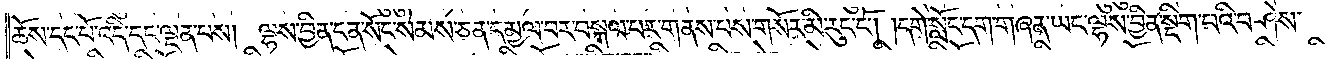ཆོས་དང་པོ་འདི་དང་ལྡན་པས། ལྷས་བྱིན་ངན་སོང་སེམས་ཅན་དམྱལ་བར་བསྐལ་པར་གནས་པས་གསོར་མི་རུང་ངོ༌། །དགེ་སློང་དག་གཞན་ཡང་ལྷས་བྱིན་སྡིག་པའི་བཤེས་
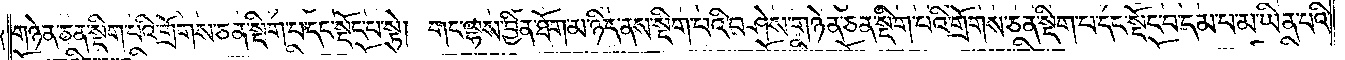གཉེན་ཅན་སྡིག་པའི་གྲོགས་ཅན་སྡིག་པ་དང་སྡོང་པ་སྟེ། གང་ལྷས་བྱིན་ཐོག་མ་ཉིད་ནས་སྡིག་པའི་བཤེས་གཉེན་ཅན་སྡིག་པའི་གྲོགས་ཅན་སྡིག་པ་དང་སྡོང་པ་དམ་པ་མ་ཡིན་པའི་
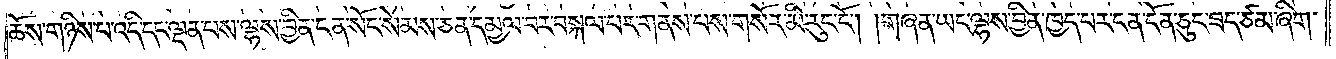ཆོས་གཉིས་པ་འདི་དང་ལྡན་པས་ལྷས་བྱིན་ངན་སོང་སེམས་ཅན་དམྱལ་བར་བསྐལ་པར་གནས་པས་གསོར་མི་རུང་ངོ༌། །གཞན་ཡང་ལྷས་བྱིན་ཁྱད་པར་ངན་ངོན་ཅུང་ཟད་ཙམ་ཞིག་
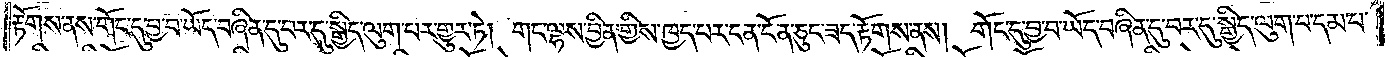རྟོགས་ནས་གོང་དུ་བྱ་བ་ཡོད་བཞིན་དུ་བར་དུ་སྒྱིད་ལུག་པར་གྱུར་ཏེ། གང་ལྷས་བྱིན་གྱིས་ཁྱད་པར་ངན་ངོན་ཅུང་ཟད་རྟོགས་ནས། གོང་དུ་བྱ་བ་ཡོད་བཞིན་དུ་བར་དུ་སྒྱིད་ལུག་པ་དམ་པ་
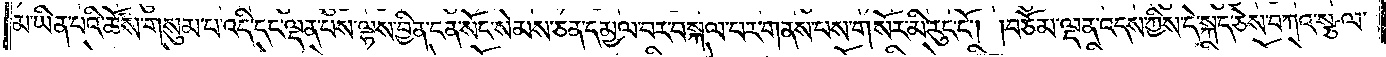མ་ཡིན་པའི་ཆོས་གསུམ་པ་འདི་དང་ལྡན་པས་ལྷས་བྱིན་ངན་སོང་སེམས་ཅན་དམྱལ་བར་བསྐལ་པར་གནས་པས་གསོར་མི་རུང་ངོ༌། །བཅོམ་ལྡན་འདས་ཀྱིས་དེ་སྐད་ཅེས་བཀའ་སྩལ་
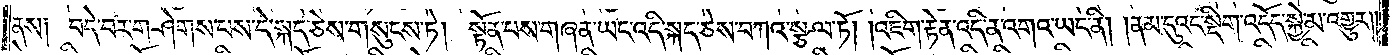ནས། བདེ་བར་གཤེགས་པས་དེ་སྐད་ཅེས་གསུངས་ཏེ། སྟོན་པས་གཞན་ཡང་འདི་སྐད་ཅེས་བཀའ་སྩལ་ཏོ། །འཇིག་རྟེན་འདི་ན་འགའ་ཡང་ནི། །ནམ་དུའང་སྡིག་འདོད་སྐྱེ་མ་འགྱུར༎
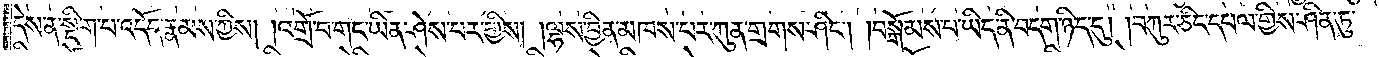དེས་ན་སྡིག་པ་འདོད་རྣམས་ཀྱིས། །འགྲོ་བ་གང་ཡིན་ཤེས་པར་གྱིས། །ལྷས་བྱིན་མཁས་པར་ཀུན་གྲགས་ཤིང༌། །བསྒོམས་པ་ཡིད་ནི་བདག་ཉིད་དུ། །བཀུར་ཅིང་དཔལ་གྱིས་ཤིན་ཏུ་
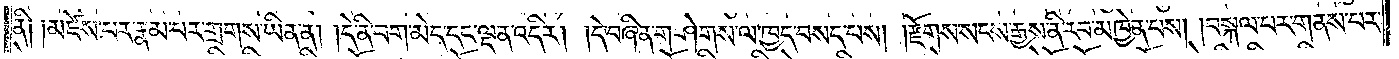ནི། །མཛེས་པར་རྣམ་པར་གྲགས་ཡིན་ན། །དེ་ནི་བག་མེད་དང་ལྡན་འདིར། །དེ་བཞིན་གཤེགས་ལ་ཁྱད་བསད་པས། །རྫོགས་སངས་རྒྱས་ནི་རབ་མཁྱེན་པས། །བསྐལ་པར་གནས་པར་
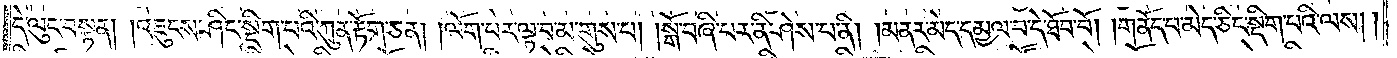དེ་ལུང་བསྟན། །འཇུངས་ཤིང་སྡིག་པའི་ཀུན་རྟོག་ཅན། །ལོག་པར་ལྟ་བ་མ་གུས་པ། །སྒོ་བཞི་པར་ནི་ཤེས་པ་ནི། །མནར་མེད་དམྱལ་བ་དེ་ཐོབ་བོ། །གནོད་པ་མེད་ཅིང་སྡིག་པའི་ལས། །
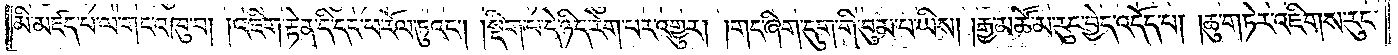མི་མཛད་པ་ལ་གང་འཁུ་བ། །འཇིག་རྟེན་དི་དང་ཕ་རོལ་ཏུ་འང༌། །སྡིག་པ་དེ་ཉིད་རེག་པར་འགྱུར། །གང་ཞིག་དུག་གི་བུམ་པ་ཡིས། །རྒྱ་མཚོ་མ་རུང་བྱེད་འདོད་པ། །ཆུ་གཏེར་འཇིགས་རུང་
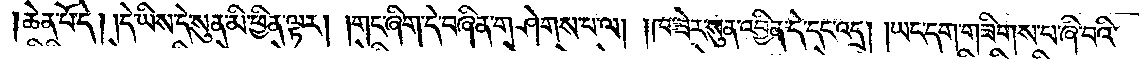།ཆེན་པོ་དེ། །དེ་ཡིས་དེ་སུན་མི་ཕྱིན་ལྟར། །གང་ཞིག་དེ་བཞིན་གཤེགས་པ་ལ། །ཁ་ཟེར་སུན་འབྱིན་དེ་དང་འདྲ། །ཡང་དག་གཟིགས་པ་ཞི་བའི་
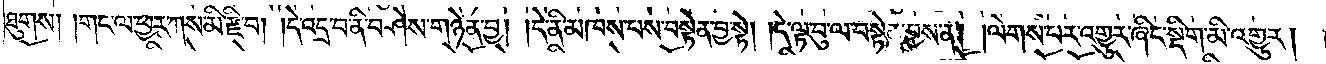ཐུགས། །གང་ལ་ཕྱར་ཀས་མི་རྫི་བ། །དེ་འདྲ་བ་ནི་བཤེས་གཉེན་བྱ། །དེ་ནི་མཁས་པས་བསྟེན་བྱ་སྟེ། །དེ་ལྟ་བུ་ལ་བསྟེན་བྱས་ན། །ལེགས་པར་འགྱུར་ཞིང་སྡིག་མི་འགྱུར།
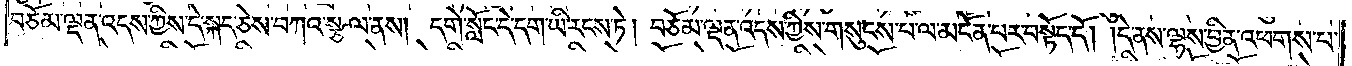བཅོམ་ལྡན་འདས་ཀྱིས་དེ་སྐད་ཅེས་བཀའ་སྩལ་ནས། དགེ་སློང་དེ་དག་ཡི་རངས་ཏེ། བཅོམ་ལྡན་འདས་ཀྱིས་གསུངས་པ་ལ་མངོན་པར་བསྟོད་དོ། །དེ་ནས་ལྷས་བྱིན་འཕགས་པ་
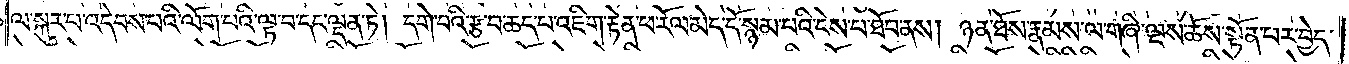ལ་སྐུར་པ་འདེབས་པའི་ལོག་པའི་ལྟ་བ་དང་ལྡན་ཏེ། དགེ་བའི་རྩ་བ་ཆད་པ་འཇིག་རྟེན་ཕ་རོལ་མེད་དོ་སྙམ་པའི་ངེས་པ་ཐོབ་ནས། ཉན་ཐོས་རྣམས་ལ་གཞི་ལྔས་ཆོས་སྟོན་པར་བྱེད་
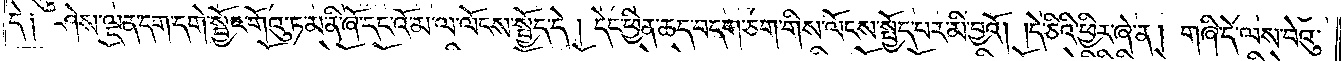དེ། ཤེས་ལྡན་དག་དགེ་སྦྱོང་གོའུ་ཏ་མ་ནི་ཞོ་དང་འོ་མ་ལ་ལོངས་སྤྱོད་དེ། དེང་ཕྱིན་ཆད་བདག་ཅག་གིས་ལོངས་སྤྱོད་པར་མི་བྱའོ། །དེ་ཅིའི་ཕྱིར་ཞེ་ན། གཞི་དེ་ལས་བེའུ་
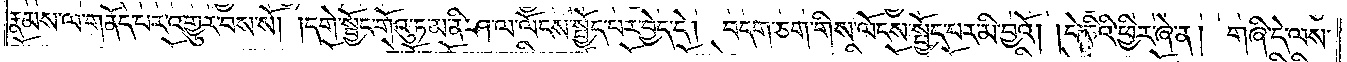རྣམས་ལ་གནོད་པར་འགྱུར་བས་སོ། །དགེ་སྦྱོང་གོའུ་ཏ་མ་ནི་ཤ་ལ་ལོངས་སྤྱོད་པར་བྱེད་དེ། བདག་ཅག་གིས་ལོངས་སྤྱོད་པར་མི་བྱའོ། །དེ་ཅིའི་ཕྱིར་ཞེ་ན། གཞི་དེ་ལས་
